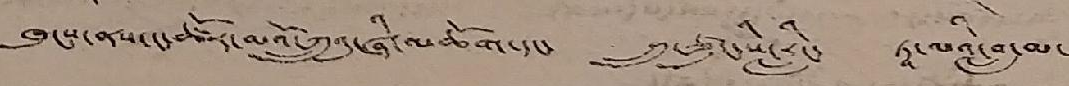ཁུངས་ནས་ང་ཚོར་མའོ་ཀྲུའུ་ཞི་མཆོག་དང་ སྲུ་ཙུང་སི་རླིང་ ཏཱ་ལའི་བླ་མ་
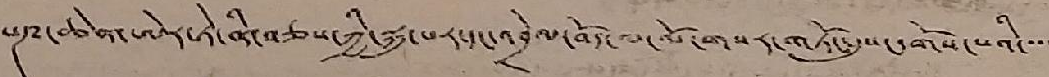པཎ་ཆེན་ཨེར་ཏེ་ནི་བཅས་ཀྱི་སྐུ་པར་དང་འབྲེལ་བོད་ལ་གསར་གཏོང་དུས་དགོས་པའི་་་་
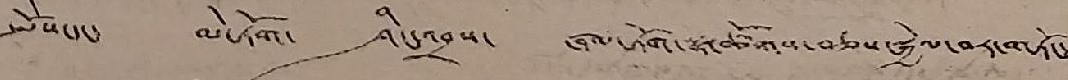སྤོས་དང་ མེ་ཏོག་ ཤིང་འབྲས་ ཞལ་ཏོག་སྣ་ཚོགས་བཅས་སྐྱེལ་བར་གཏོང་
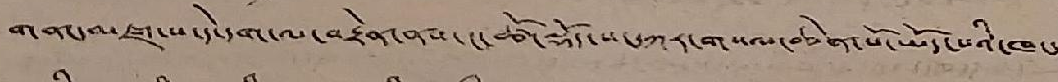གནང་མཛད་པ་དེ་དག་ལ་བརྟེན་ནས་ང་ཚོ་སྡོད་ས་དཀར་གསལ་ཆེན་པོ་ཡོད་པའི་ཁང་
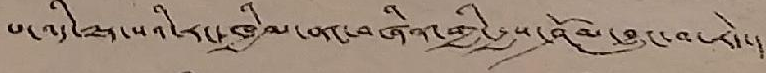པ་འདི་ལྷ་སའི་རང་ཁྱིམ་ནང་བཞིན་གྱི་རྒྱས་ཤོམ་བྱུང་བ་རེད་།
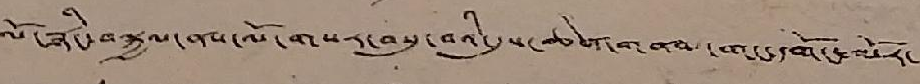ལོ་རྙིང་བསྐྱལ་ནས་ལོ་གསར་བསུ་བའི་དུས་ཆེན་གནམ་གང་དགོང་མོར་
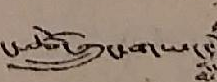ང་ཚོ་ཀྲུང་གཡང་
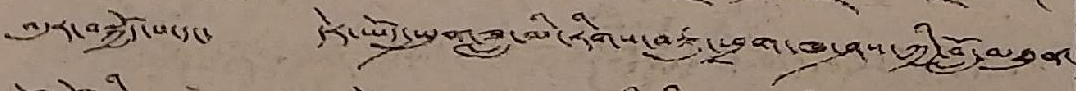འདུར་བསྐྱོད་པ་དང་ དེར་ཡོད་སྤུན་ཟླ་མི་རིགས་བཅུ་ཕྲག་ཁ་ཤས་ཀྱི་བློ་མཐུན་
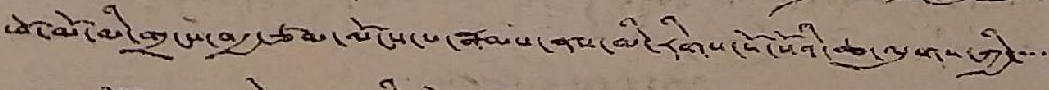ཕོ་མོ་མི་གྲངས་བརྒྱ་ཙམ་ལོངས་པ་རྣམས་ནས་མི་རིགས་སོ་སོའི་ཆ་ལུགས་ཀྱི་་་་་
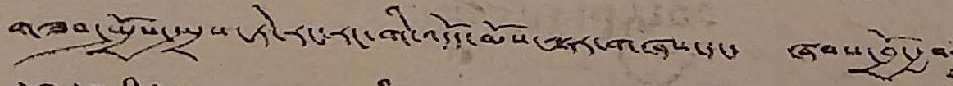གཟབ་སྤྲོས་སྤྲས་ཏེ་རང་རང་གི་འདོད་མོས་ལྟར་གཞས་དང་ ཞབས་བྲོ་རྒྱབ
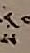ས
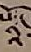འི
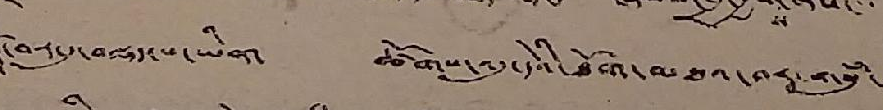་བར་དུ་བསྡད་པ་ཡིན་ ཚོགས་འདུ་དེའི་ཐོག་མཐའ་བར་གསུཾ་
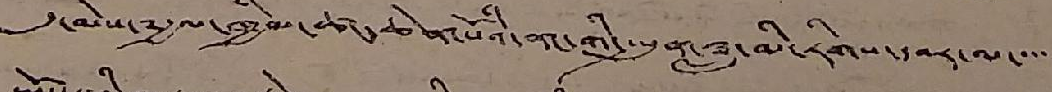དུ་མེས་༸རྒྱལ་ཁྱིམ་ཚང་ཆེན་པོའི་ནང་གི་སྤུན་ཟླ་མི་རིགས་དབར་ལ་་་་་
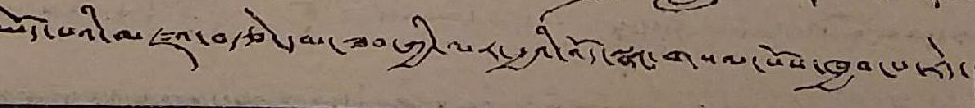ཡོད་པའི་མཛའ་བརྩེ་དམ་ཟབ་ཀྱི་ལར་རྒྱའི་འོད་སྣང་གསལ་པོས་ཁྱབ་པ་རེད་།
